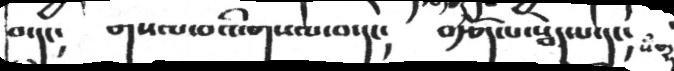བ་དང།   གསལ་བའི་གསལ་བ་དང།  བརྩོད་པ་སྦེད་པ་དང།
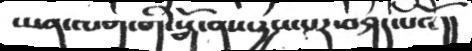ཡན་ལག་གི་སྒོ་ནས་དྱས་པར་བཤད་པའོ།།
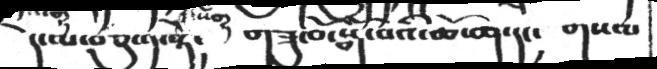དེ་ལ་བཅུ་༡་སྟེ།     གཟུ་བོ་སྒོ་བའི་ཆོ་ག་དང།   གསལ
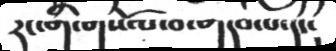རང་གི་གསོལ་བ་གདབ་པ་དང་
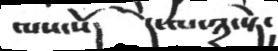ལས་སོ།  དེ་ལ་༣་སྟེ།
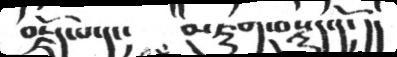བསྗོད་པ་དང།  མཇུག་བསྡུད་དོ།།།
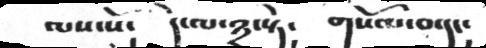ལས་སོ།  དེ་ལ་༣་སྟེ།  གསོལ་བ་དང་
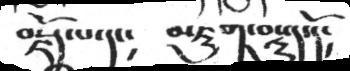བརྗོད་པ་དང།  བཇུག་བསྡུད་དདོ།
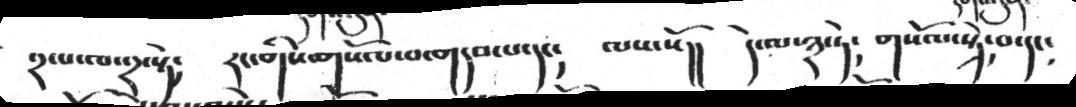༢་པ་ལ་༢་སྟེ།  རང་གིས་གསོལ་པ་གདབ་པ་དང།  ལས་སོ།།  དེ་ལ་༣་ཏེ།  གསོལ་སྟེ་བ་དང།
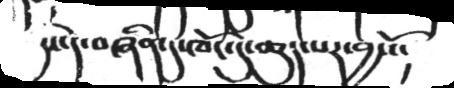དང་དེ་བཞིན་དུ་ཁོང་དུ་ཆུད་པར་བྱསོ།
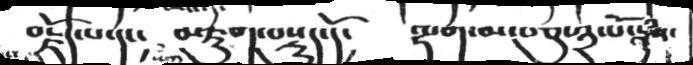བརྗོད་པ་དང༴  མཇུག་བསྡུད་དོ༴  ལྷག་མ་བཅུ་༣་པོ་རྣཾས་
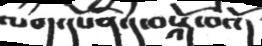ལག་དཔོན་དུ་བསྐོ་བའོ།
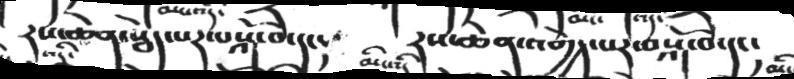༢པ་ཆེན་སྦེད་པར་བསྐོ་བ་དང༴    ༢པ་ཆེན་འགྱེད་པར་བསྐོ་བ་དང༴
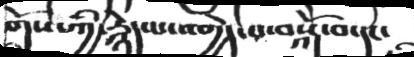གོས་ཀྱི་རྙེད་པ་འགྱེད་པ་བསྐོ་བ་དང་
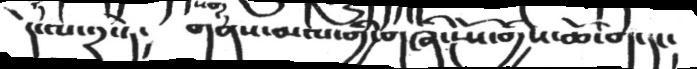དེ་ལ་༢་ཏེ༴  གནས་མལ་གྱི་གཞི་རྔོས་གྱིས་ཆོ་ག་དང༴
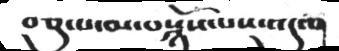བཅུ་པ་མ་བསྙོས་པས་འདུལ
